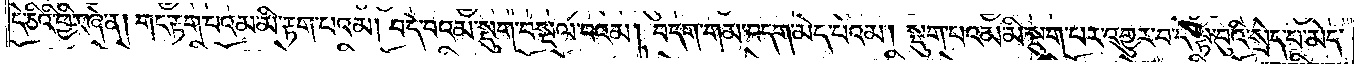དེ་ཅིའི་ཕྱིར་ཞེ་ན། གང་རྟག་པའམ་མི་རྟག་པའམ། བདེ་བའམ་སྡུག་བསྔལ་བའམ། བདག་གམ་བདག་མེད་པའམ། སྡུག་པའམ་མི་སྡུག་པར་འགྱུར་བ་དེ་ལྟ་བུའི་སྲེད་པ་མེད་
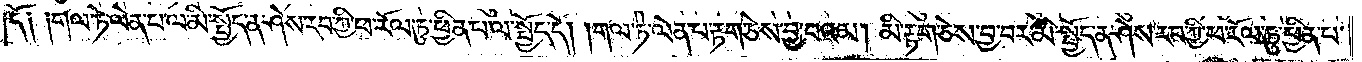དོ༑ ༑གལ་ཏེ་ལེན་པ་ལ་མི་སྤྱོད་ན་ཤེས་རབ་ཀྱི་ཕ་རོལ་ཏུ་ཕྱིན་པ་ལ་སྤྱོད་དོ། །གལ་ཏེ་ལེན་པ་རྟག་ཅེས་བྱ་བའམ། མི་རྟག་ཅེས་བྱ་བར་མི་སྤྱོད་ན་ཤེས་རབ་ཀྱི་ཕ་རོལ་ཏུ་ཕྱིན་པ་
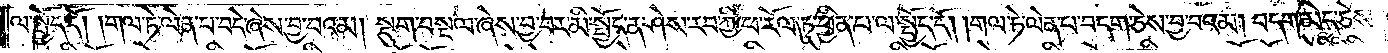ལ་སྤྱོད་དོ། །གལ་ཏེ་ལེན་པ་བདེ་ཞེས་བྱ་བའམ། སྡུག་བསྔལ་ཞེས་བྱ་བར་མི་སྤྱོད་ན་ཤེས་རབ་ཀྱི་ཕ་རོལ་ཏུ་ཕྱིན་པ་ལ་སྤྱོད་དོ། །གལ་ཏེ་ལེན་པ་བདག་ཅེས་བྱ་བའམ། བདག་མེད་ཅེས་
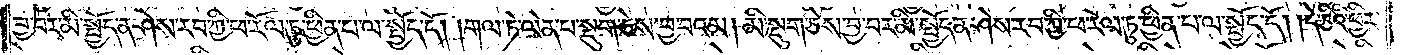བྱ་བར་མི་སྤྱོད་ན་ཤེས་རབ་ཀྱི་ཕ་རོལ་ཏུ་ཕྱིན་པ་ལ་སྤྱོད་དོ། །གལ་ཏེ་ལེན་པ་སྡུག་ཅེས་བྱ་བའམ། མི་སྡུག་ཅེས་བྱ་བར་མི་སྤྱོད་ན་ཤེས་རབ་ཀྱི་ཕ་རོལ་ཏུ་ཕྱིན་པ་ལ་སྤྱོད་དོ། །དེ་ཅིའི་ཕྱིར་
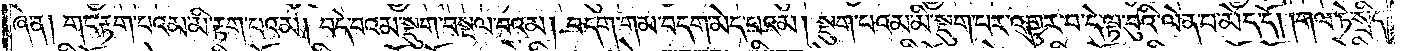ཞེ་ན། གང་རྟག་པའམ་མི་རྟག་པའམ། བདེ་བའམ་སྡུག་བསྔལ་བའམ། བདག་གམ་བདག་མེད་པའམ། སྡུག་པའམ་མི་སྡུག་པར་འགྱུར་བ་དེ་ལྟ་བུའི་ལེན་པ་མེད་དོ། །གལ་ཏེ་སྲིད་
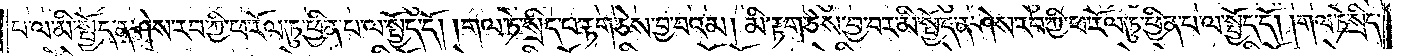པ་ལ་མི་སྤྱོད་ན་ཤེས་རབ་ཀྱི་ཕ་རོལ་ཏུ་ཕྱིན་པ་ལ་སྤྱོད་དོ། །གལ་ཏེ་སྲིད་པ་རྟག་ཅེས་བྱ་བའམ། མི་རྟག་ཅེས་བྱ་བར་མི་སྤྱོད་ན་ཤེས་རབ་ཀྱི་ཕ་རོལ་ཏུ་ཕྱིན་པ་ལ་སྤྱོད་དོ། །གལ་ཏེ་སྲིད་
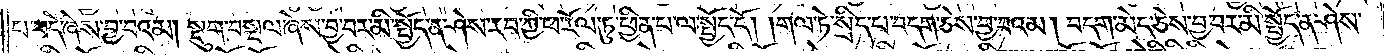པ་བདེ་ཞེས་བྱ་བའམ། སྡུག་བསྔལ་ཞེས་བྱ་བར་མི་སྤྱོད་ན་ཤེས་རབ་ཀྱི་ཕ་རོལ་ཏུ་ཕྱིན་པ་ལ་སྤྱོད་དོ། །གལ་ཏེ་སྲིད་པ་བདག་ཅེས་བྱ་བའམ། བདག་མེད་ཅེས་བྱ་བར་མི་སྤྱོད་ན་ཤེས་
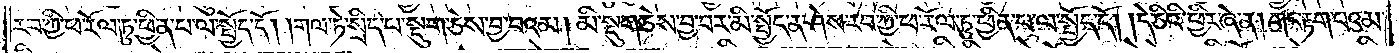རབ་ཀྱི་ཕ་རོལ་ཏུ་ཕྱིན་པ་ལ་སྤྱོད་དོ། །གལ་ཏེ་སྲིད་པ་སྡུག་ཅེས་བྱ་བའམ། མི་སྡུག་ཅེས་བྱ་བར་མི་སྤྱོད་ན་ཤེས་རབ་ཀྱི་ཕ་རོལ་ཏུ་ཕྱིན་པ་ལ་སྤྱོད་དོ། །དེ་ཅིའི་ཕྱིར་ཞེ་ན། གང་རྟག་པའམ་
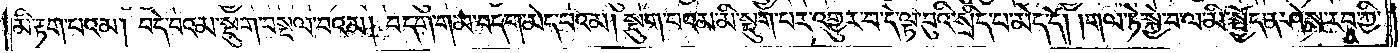མི་རྟག་པའམ། བདེ་བའམ་སྡུག་བསྔལ་བའམ། བདག་གམ་བདག་མེད་པའམ། སྡུག་པའམ་མི་སྡུག་པར་འགྱུར་བ་དེ་ལྟ་བུའི་སྲིད་པ་མེད་དོ། །གལ་ཏེ་སྐྱེ་བ་ལ་མི་སྤྱོད་ན་ཤེས་རབ་ཀྱི་
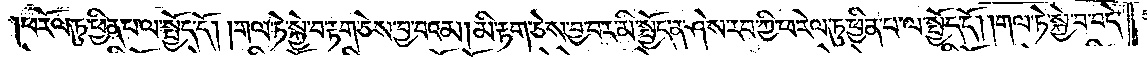ཕ་རོལ་ཏུ་ཕྱིན་པ་ལ་སྤྱོད་དོ། །གལ་ཏེ་སྐྱེ་བ་རྟག་ཅེས་བྱ་བའམ། མི་རྟག་ཅེས་བྱ་བར་མི་སྤྱོད་ན་ཤེས་རབ་ཀྱི་ཕ་རོལ་ཏུ་ཕྱིན་པ་ལ་སྤྱོད་དོ། །གལ་ཏེ་སྐྱེ་བ་བདེ་
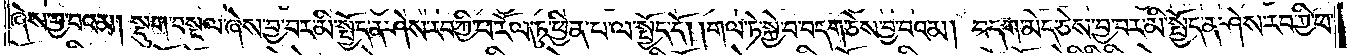ཞེས་བྱ་བའམ། སྡུག་བསྔལ་ཞེས་བྱ་བར་མི་སྤྱོད་ན་ཤེས་རབ་ཀྱི་ཕ་རོལ་ཏུ་ཕྱིན་པ་ལ་སྤྱོད་དོ། །གལ་ཏེ་སྐྱེ་བ་བདག་ཅེས་བྱ་བའམ། བདག་མེད་ཅེས་བྱ་བར་མི་སྤྱོད་ན་ཤེས་རབ་ཀྱི་ཕ་
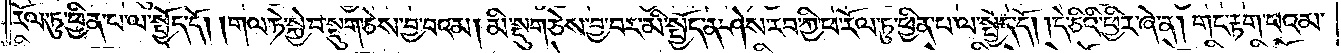རོལ་ཏུ་ཕྱིན་པ་ལ་སྤྱོད་དོ། །གལ་ཏེ་སྐྱེ་བ་སྡུག་ཅེས་བྱ་བའམ། མི་སྡུག་ཅེས་བྱ་བར་མི་སྤྱོད་ན་ཤེས་རབ་ཀྱི་ཕ་རོལ་ཏུ་ཕྱིན་པ་ལ་སྤྱོད་དོ། །དེ་ཅིའི་ཕྱིར་ཞེ་ན། གང་རྟག་པའམ་
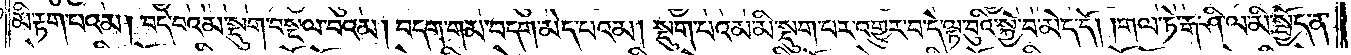མི་རྟག་པའམ། བདེ་བའམ་སྡུག་བསྔལ་བའམ། བདག་གམ་བདག་མེད་པའམ། སྡུག་པའམ་མི་སྡུག་པར་འགྱུར་བ་དེ་ལྟ་བུའི་སྐྱེ་བ་མེད་དོ། །གལ་ཏེ་རྒ་ཤི་ལ་མི་སྤྱོད་ན་
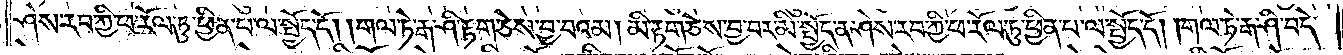ཤེས་རབ་ཀྱི་ཕ་རོལ་ཏུ་ཕྱིན་པ་ལ་སྤྱོད་དོ། །གལ་ཏེ་རྒ་ཤི་རྟག་ཅེས་བྱ་བའམ། མི་རྟག་ཅེས་བྱ་བར་མི་སྤྱོད་ན་ཤེས་རབ་ཀྱི་ཕ་རོལ་ཏུ་ཕྱིན་པ་ལ་སྤྱོད་དོ། །གལ་ཏེ་རྒ་ཤི་བདེ་
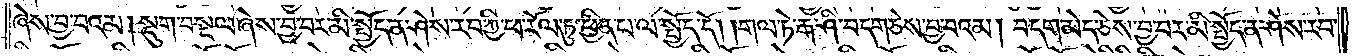ཞེས་བྱ་བའམ། སྡུག་བསྔལ་ཞེས་བྱ་བར་མི་སྤྱོད་ན་ཤེས་རབ་ཀྱི་ཕ་རོལ་ཏུ་ཕྱིན་པ་ལ་སྤྱོད་དོ། །གལ་ཏེ་རྒ་ཤི་བདག་ཅེས་བྱ་བའམ། བདག་མེད་ཅེས་བྱ་བར་མི་སྤྱོད་ན་ཤེས་རབ་
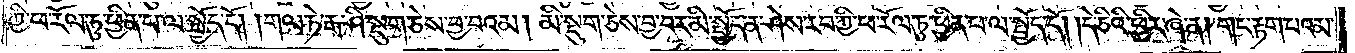ཀྱི་ཕ་རོལ་ཏུ་ཕྱིན་པ་ལ་སྤྱོད་དོ། །གལ་ཏེ་རྒ་ཤི་སྡུག་ཅེས་བྱ་བའམ། མི་སྡུག་ཅེས་བྱ་བར་མི་སྤྱོད་ན་ཤེས་རབ་ཀྱི་ཕ་རོལ་ཏུ་ཕྱིན་པ་ལ་སྤྱོད་དོ། །དེ་ཅིའི་ཕྱིར་ཞེ་ན། གང་རྟག་པའམ་
